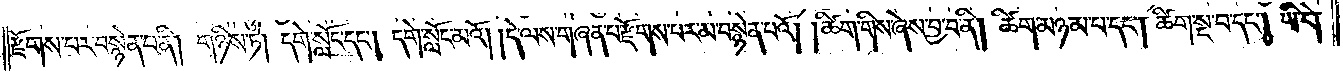རྫོགས་པར་བསྙེན་པ་ནི། གཉིས་ཏེ། དགེ་སློང་དང༌། དགེ་སློང་མའོ། །དེ་ལས་གཞན་པ་རྫོགས་པར་མ་བསྙེན་པའོ། །ཚིག་གིས་ཞེས་བྱ་བ་ནི། ཚིག་མཉམ་པ་དང༌། ཚིག་སྔ་བ་དང༌། ཡི་གེ་
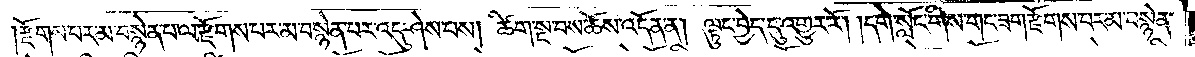རྫོགས་པར་མ་བསྙེན་པ་ལ་རྫོགས་པར་མ་བསྙེན་པར་འདུ་ཤེས་པས། ཚིག་སྔ་བས་ཆོས་འདོན་ན། ལྟུང་བྱེད་དུ་འགྱུར་རོ། །དགེ་སློང་གིས་གང་ཟག་རྫོགས་པར་མ་བསྙེན་
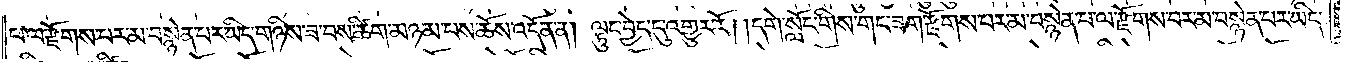པ་ལ་རྫོགས་པར་མ་བསྙེན་པར་ཡིད་གཉིས་ཟ་བས་ཚིག་མཉམ་པས་ཆོས་འདོན་ན། ལྟུང་བྱེད་དུ་འགྱུར་རོ། །དགེ་སློང་གིས་གང་ཟག་རྫོགས་པར་མ་བསྙེན་པ་ལ་རྫོགས་པར་མ་བསྙེན་པར་ཡིད་
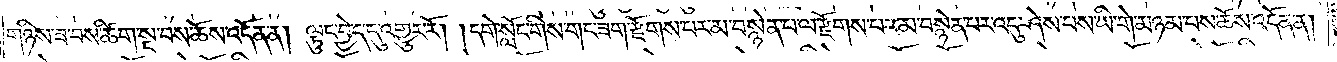གཉིས་ཟ་བས་ཚིག་སྔ་བས་ཆོས་འདོན་ན། ལྟུང་བྱེད་དུ་འགྱུར་རོ། །དགེ་སློང་གིས་གང་ཟག་རྫོགས་པར་མ་བསྙེན་པ་ལ་རྫོགས་པར་མ་བསྙེན་པར་འདུ་ཤེས་པས་ཡི་གེ་མཉམ་པས་ཆོས་འདོན་ན།
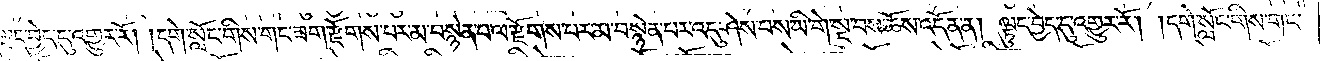ལྟུང་བྱེད་དུ་འགྱུར་རོ། །དགེ་སློང་གིས་གང་ཟག་རྫོགས་པར་མ་བསྙེན་པ་ལ་རྫོགས་པར་མ་བསྙེན་པར་འདུ་ཤེས་པས་ཡི་གེ་སྔ་བས་ཆོས་འདོན་ན། ལྟུང་བྱེད་དུ་འགྱུར་རོ། །དགེ་སློང་གིས་གང་
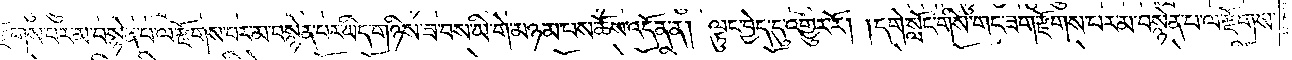རྫོགས་པར་མ་བསྙེན་པ་ལ་རྫོགས་པར་མ་བསྙེན་པར་ཡིད་གཉིས་ཟ་བས་ཡི་གེ་མཉམ་པས་ཆོས་འདོན་ན། ལྟུང་བྱེད་དུ་འགྱུར་རོ། །དགེ་སློང་གིས་གང་ཟག་རྫོགས་པར་མ་བསྙེན་པར་ལ་རྫོགས་
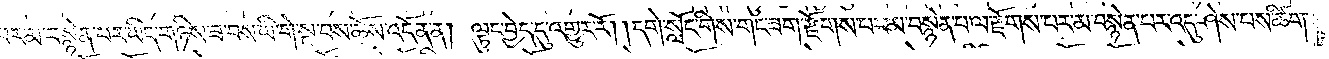པར་མ་བསྙེན་པར་ཡིད་གཉིས་ཟ་བས་ཡི་གེ་སྔ་བས་ཆོས་འདོན་ན། ལྟུང་བྱེད་དུ་འགྱུར་རོ། །དགེ་སློང་གིས་གང་ཟག་རྫོགས་པར་མ་བསྙེན་པ་ལ་རྫོགས་པར་མ་བསྙེན་པར་འདུ་ཤེས་པས་ཚིག་
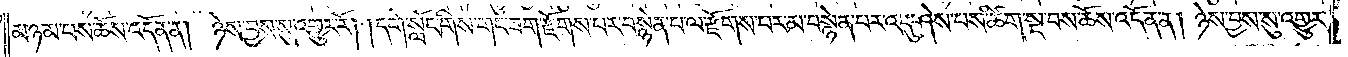མཉམ་པས་ཆོས་འདོན་ན། ཉེས་བྱས་སུ་འགྱུར་རོ། །དགེ་སློང་གིས་གང་ཟག་རྫོགས་པར་བསྙེན་པ་ལ་རྫོགས་པར་མ་བསྙེན་པར་འདུ་ཤེས་པས་ཚིག་སྔ་བས་ཆོས་འདོན་ན། ཉེས་བྱས་སུ་འགྱུར་
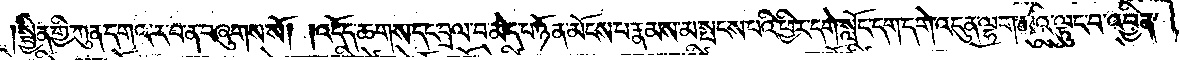སྦྱིན་གྱི་ཀུན་དགའ་ར་བ་ན་བཞུགས་སོ། །འདོད་ཆགས་དང་བྲལ་བ་མེད་པ་ཉོན་མོངས་པ་རྣམས་མ་སྤངས་པའི་ཕྱིར་དགེ་སློང་དག་དགེ་འདུན་ལྷག་མའི་ལྟུང་བ་འབྱིན་
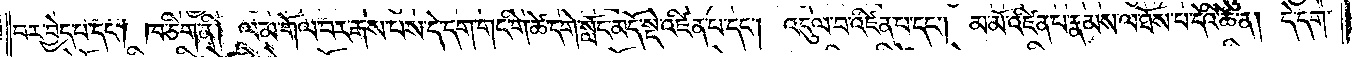པར་བྱེད་པ་དང༌། ཁ་ཅིག་ནི། ལམ་གོལ་བར་རྒས་པས་དེ་དག་གང་གི་ཚེ་དགེ་སློང་མདོ་སྡེ་འཛིན་པ་དང༌། འདུལ་བ་འཛིན་པ་དང༌། མ་མོ་འཛིན་པ་རྣམས་ལ་ཐོས་པ་དེའི་ཚེ་ན། དེ་དག་
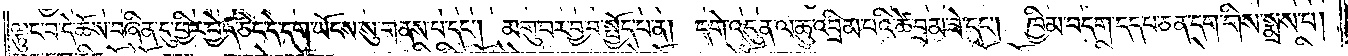ལྟུང་བ་དེ་ཆོས་བཞིན་དུ་ཕྱིར་བྱེད་ཅིང་དེ་དག་ཡོངས་སུ་གནས་པ་དང༌། མགུ་བར་བྱ་བ་སྤྱོད་པ་ན། དགེ་འདུན་ལ་ཆུ་འབྲིམ་པའི་ཚེ་བྲམ་ཟེ་དང༌། ཁྱིམ་བདག་དད་པ་ཅན་དག་གིས་སྨྲས་པ།
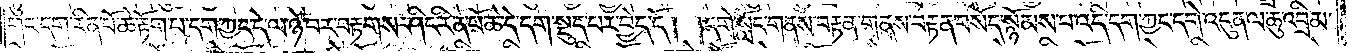གང་དག་རིན་པོ་ཆེ་རྟོག་པ་དག་ཀྱང་དེ་ལ་ཉེ་བར་བརྟགས་ཤིང་རིན་པོ་ཆེ་དེ་དག་སྡུད་པར་བྱེད་དོ། །དགེ་སློང་གནས་བརྟན་གནས་བརྟན་བསོད་སྙོམས་པ་འདི་དག་ཀྱང་དགེ་འདུན་ལ་ཆུ་འབྲིམ་
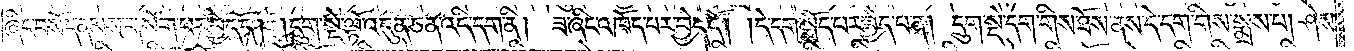ཞིང་བསོད་ནམས་གསོག་པར་བྱེད་དོ། །དྲུག་སྡེ་ལྟོ་འདུན་ཅན་འདི་དག་ནི། ཟ་ཞིང་འཁོད་པར་བྱེད་དོ། །དེ་དག་སྨོད་པར་བྱེད་པ་ན། དྲུག་སྡེ་དག་གིས་ཐོས་ནས་དེ་དག་གིས་སྨྲས་པ། ཤེས་
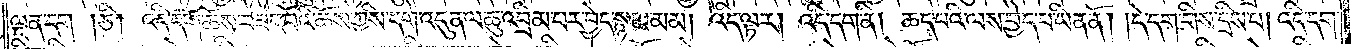ལྡན་དག །ཅི། འདི་དག་ཆོས་བཟང་པོའི་ཆོས་ཀྱིས་དགེ་འདུན་ལ་ཆུ་འབྲིམ་པར་བྱེད་སྙམ་མམ། འདི་ལྟར། འདི་དག་ནི། ཆད་པའི་ལས་བྱེད་པ་ཡིན་ནོ། །དེ་དག་གིས་དྲིས་པ། འདི་དག་
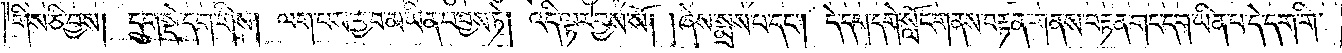གིས་ཅི་བྱས། དྲུག་སྡེ་དག་གིས། ལག་པས་བྱ་བ་མ་ཡིན་པ་བྱས་ཏེ། འདི་ལྟར་བྱས་སོ། །ཞེས་སྨྲས་པ་དང༌། དེ་དག་དགེ་སློང་གནས་བརྟན་གནས་བརྟན་གང་དག་ཡིན་པ་དེ་དག་གི་
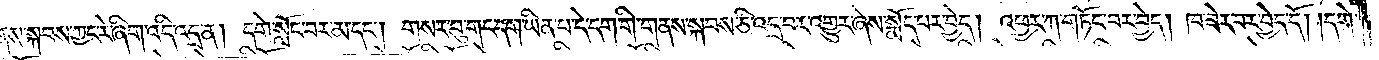གནས་སྐབས་ཀྱང་རེ་ཞིག་འདི་འདྲ་ན། དགེ་སློང་བར་མ་དང༌། གསར་བུ་གང་དག་ཡིན་པ་དེ་དག་གི་གནས་སྐབས་ཅི་འདྲ་བར་འགྱུར་ཞེས་སྨོད་པར་བྱེད། འཕྱར་ཀ་གཏོང་བར་བྱེད། ཁ་ཟེར་བར་བྱེད་དོ། །དགེ་
